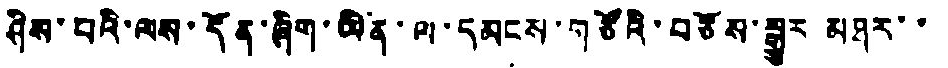ཤིས་པའི་ལས་དོན་ཞིག་ཡིན་ལ་དམངས་གཙོའི་བཅོས་སྒྱུར མཐར་་
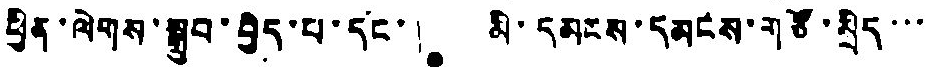ཕྱིན་ལེགས་སྒྲུབ་བྱེད་པ་དང་། མི་དམངས་དམངས་གཙོ་སྲིད་་་
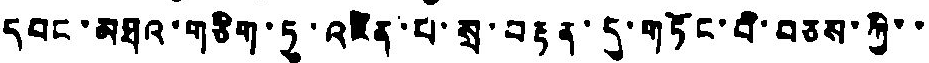དབང་མཐའ་གཅིག་ཏུ་འཛིན་པ་སྲ་བརྟན་དུ་གཏོང་བི་བཅས་ཀྱི་་
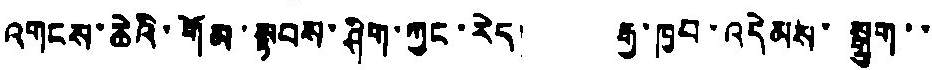འགངས་ཆེའི་གོམ་སྟབས་ཤིག་ཀྱང་རེད། རྒྱ་ཁྱབ་འདེམས་སྒྲུག་་
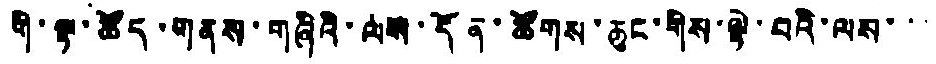གི་ལྟ་ཚོད་གནས་གཞིའི་ལས་དོན་ཚོགས་ཆུང་གིས་ལྟེ་བའི་ལས་་་
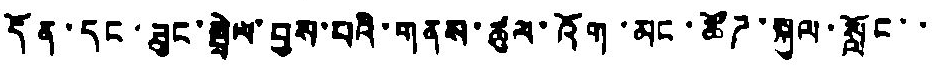དོན་དང་ཟུང་སྦྲེལ་བྱས་པའི་གནས་ཚུལ་འོག་མང་ཚོཌ་སྐུལ་སློང་་
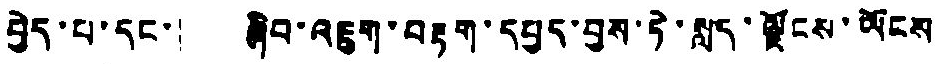བྱེད་པ་དང་། ཞིབ་འཇུག་བརྟག་དཔྱད་བྱས་ཏེ་སླད་ལྗོངས་ཡོངས
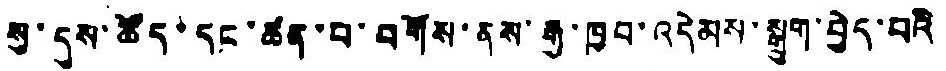སུ་དུས་ཚོད་དང་ཚན་བ་བགོས་ནས་རྒྱ་ཁྱབ་འདེམས་སྒྲུག་བྱེད་པའི
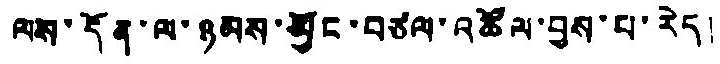ལས་དོན་ལ་ཉམས་མྱོང་བཙལ་འཚོལ་བྱས་པ་རེད།
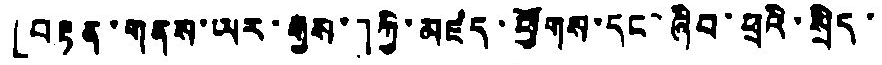「བརྟན་གནས་ཡར་རྒྱས་」ཀྱི་མཛད་ཕྱོགས་དང་ཞིབ་ཕྲའི་སྲིད་
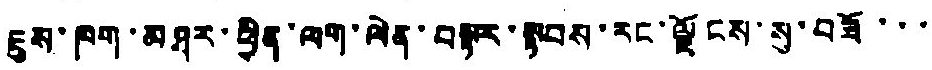ཇུས་ཁག་མཐར་ཕྱིན་ལག་ལེན་བསྟར་སྟབས་རང་ལྗོངས་སུ་བཟོ་་་
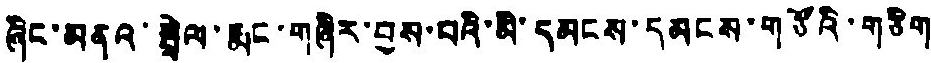ཞིང་མནའ་སྦྲེལ་རྨང་གཞིར་བྱས་པའི་མི་དམངས་དམངས་གཙོའི་གཅིག
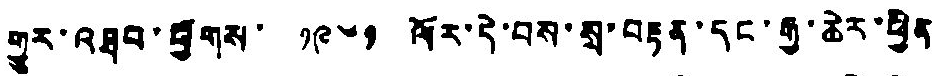གྱུར་འཐབ་ཕྱོགས་ ༡༩༦༡ ལོར་དེ་བས་སྲ་བརྟན་དང་རྒྱ་ཆེར་ཕྱིན
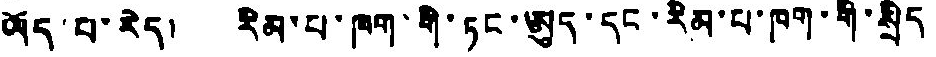ཡོད་པ་རེད། རིམ་པ་ཁག་གི་ཏང་ཨུད་དང་རིམ་པ་ཁག་གི་སྲིད
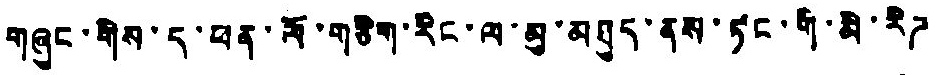གཞུང་གིས་ད་ཕན་ལོ་གཅིག་རིང་ལ་མུ་མཐུད་ནས་ཏང་གི་མི་རིཌ
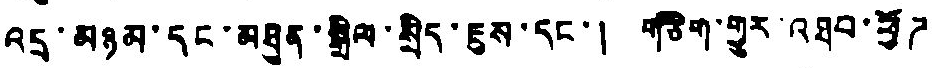འདྲ་མཉམ་དང་མཐུན་སྒྲིལ་སྲིད་ཇུས་དང་། གཅིག་གྱུར་འཐབ་ཕྱོཌ
